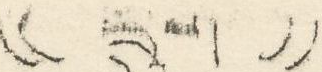(( དྲུག ))
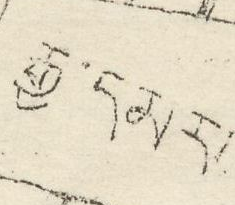རྒྱ་དམར།
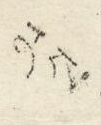ནས་
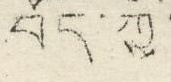བོད་ཀྱི་
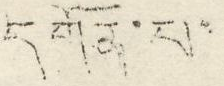དགོན་པ་
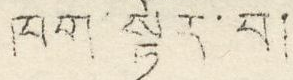ཁག་སྟོར་བ།
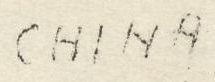CHINA
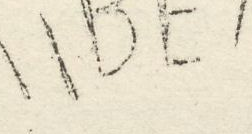TIBET
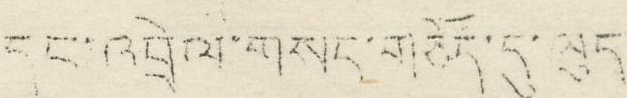དང་འབྲེལ་གསལ་གཅོད་དུ་ལུད་
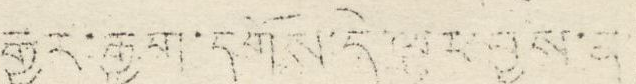རྒྱར་རྒྱག་དགོངས་དེ་ལྟར་བྱས་ན་
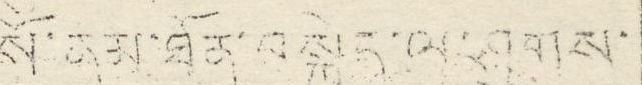སོ་ནམ་ཐོན་བསྐྱེད་ལ་ཤུགས་
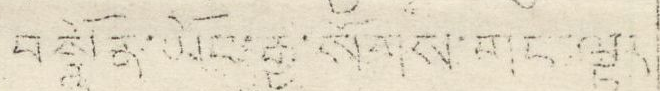བསྣོན་ཡོང་རྒྱུ་སོགས་གང་ལྟར
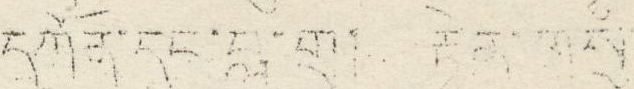དཀོན་དང་བླ་གྲ། རྟེན་གསུཾ
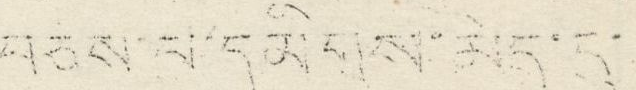བཅས་ལ་དམིསག་མེད་དུ་
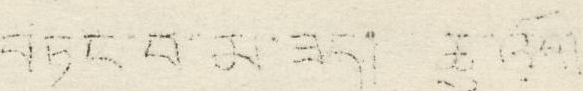བཏང་བ་མ་ཟད། ཆུ་འོག་
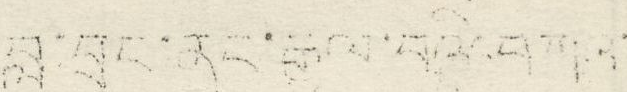བླ་བྲང་ནང་རྒྱལ་བའི་བཀའ་
